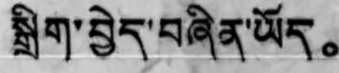སྒྲིག་བྱེད་བཞིན་ཡོད。
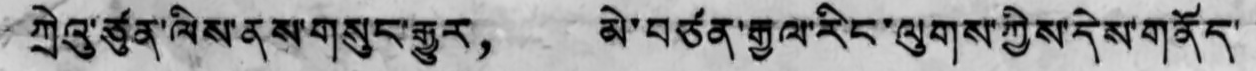ཀྲེའུ་ཙུན་ལིས་ནས་གསུང་རྒྱུར， མེ་བཙན་རྒྱལ་རིང་ལུགས་ཀྱིས་དེས་གནོད་
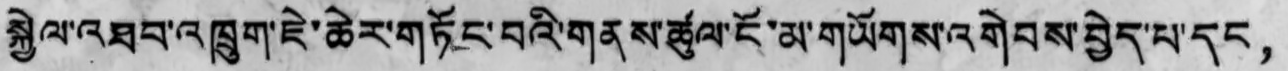སྐྱེལ་འཐབ་འཁྲུག་ཇེ་ཆེར་གཏོང་བའི་གནས་ཚུལ་ངོ་མ་གཡོགས་འགེབས་བྱེད་པ་དང，
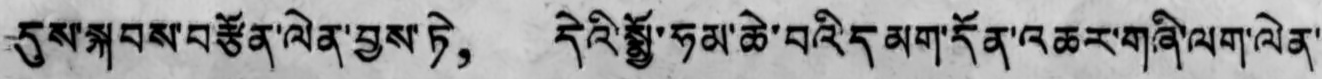དུས་སྐབས་བརྩོན་ལེན་བྱས་ཏེ， དེའི་སྨྱོ་ཧམ་ཆེ་བའི་དམག་དོན་འཆར་གཞི་ལག་ལེན་
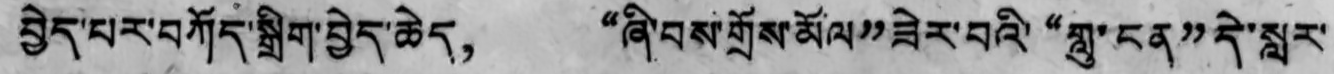བྱེད་པར་བཀོད་སྒྲིག་བྱེད་ཆེད， “ཞི་བས་གྲོས་མོལ”ཟེར་བའི་“གླུ་ངན”དེ་སླར་
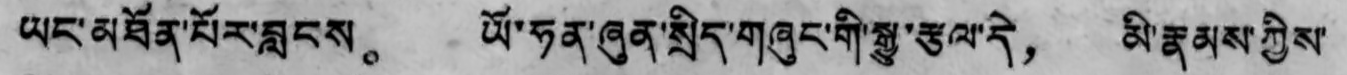ཡང་མཐོན་པོར་བླངས。 ཡོ་ཧན་ཞུན་སྲིད་གཞུང་གི་སྒྱུ་རྩལ་དེ， མི་རྣམས་ཀྱིས་
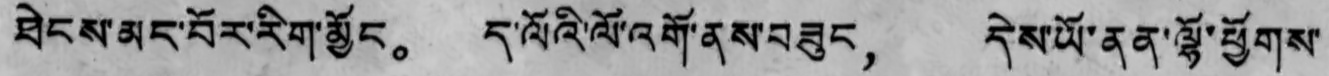ཐེངས་མང་པོར་རིག་མྱོང。 ད་ལོའི་ལོ་འགོ་ནས་བཟུང， དེས་ཡོ་ནན་ལྷོ་ཕྱོགས་
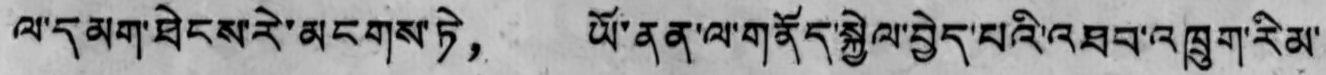ལ་དམག་ཐེངས་རེ་མངགས་ཏེ， ཡོ་ནན་ལ་གནོད་སྐྱེལ་བྱེད་པའི་འཐབ་འཁྲུག་རིམ་
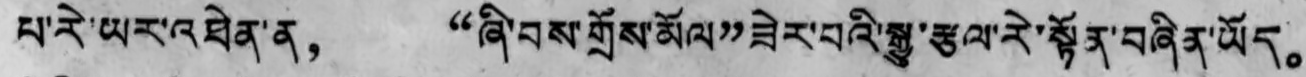པ་རེ་ཡར་འཐེན་ན， “ཞི་བས་གྲོས་མོལ”ཟེར་བའི་སྒྱུ་རྩལ་རེ་སྟོན་བཞིན་ཡོད。
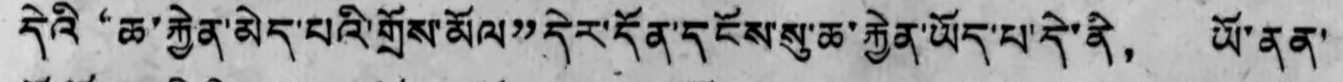དེའི“ཆ་རྐྱེན་མེད་པའི་གྲོས་མོལ”དེར་དོན་དངོས་སུ་ཆ་རྐྱེན་ཡོད་པ་དེ་ནི， ཡོ་ནན་
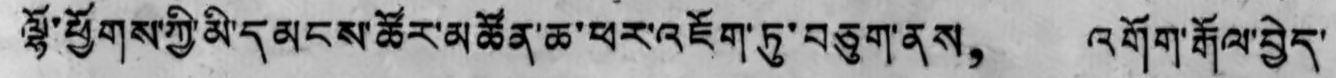ལྷོ་ཕྱོགས་ཀྱི་མི་དམངས་ཚོར་མཚོན་ཆ་ཕར་འཇོག་ཏུ་བཅུག་ནས， འགོག་རྒོལ་བྱེད་
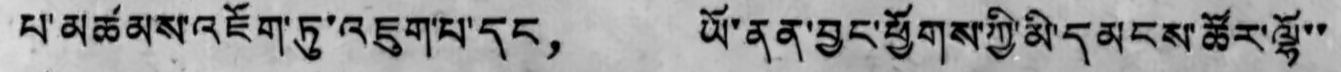པ་མཚམས་འཇོག་ཏུ་འཇུག་པ་དང， ཡོ་ནན་བྱང་ཕྱོགས་ཀྱི་མི་དམངས་ཚོར་ལྷོ་་
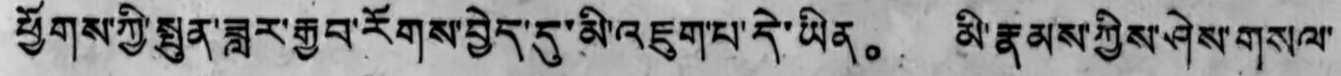ཕྱོགས་ཀྱི་སྤུན་ཟླར་རྒྱབ་རོགས་བྱེད་དུ་མི་འཇུག་པ་དེ་ཡིན。 མི་རྣམས་ཀྱིས་ཤེས་གསལ་
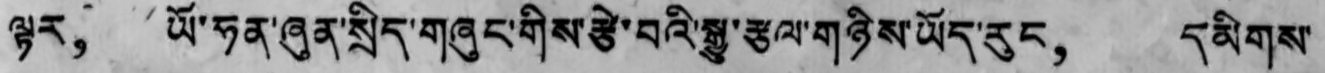ལྟར， ཡོ་ཧན་ཞུན་སྲིད་གཞུང་གིས་རྩེ་བའི་སྒྱུ་རྩལ་གཉིས་ཡོད་རུང， དམིགས་
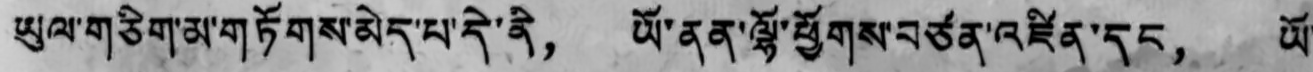ཡུལ་གཅིག་མ་གཏོགས་མེད་པ་དེ་ནི， ཡོ་ནན་ལྷོ་ཕྱོགས་བཙན་འཛིན་དང， ཡོ་
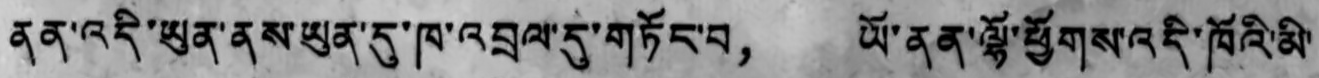ནན་འདི་ཡུན་ནས་ཡུན་དུ་ཁ་འབྲལ་དུ་གཏོང་བ， ཡོ་ནན་ལྷོ་ཕྱོགས་འདི་ཁོའི་མི་
